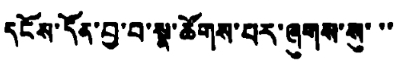དངོས་དོན་བྱ་བ་སྣ་ཚོགས་པར་ཞུགས་སུ་་་
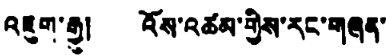འཇུག་རྒྱུ། འོས་འཚམ་གྱིས་རང་གཞན་
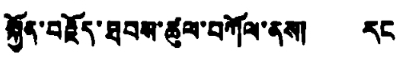སྐྱོན་བརྗོད་ཐབས་ཚུལ་བཀོལ་ནས། རང
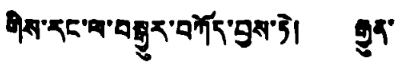གིས་རང་ལ་བསྒྱུར་བཀོད་བྱས་ཏེ། རྒྱུན་
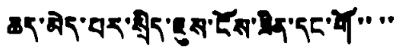ཆད་མེད་པར་སྲིད་ཇུས་ངོས་ཟིན་དང་གོ་་་་
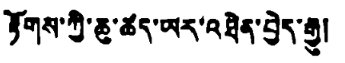རྟོགས་ཀྱི་ཆུ་ཚད་ཡར་འཐེན་བྱེད་རྒྱུ།
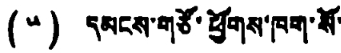(༥) དམངས་གཙོ་ཕྱོགས་ཁག་སོ་
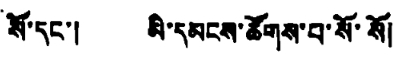སོ་དང་། མི་དམངས་ཚོགས་པ་སོ་སོ།
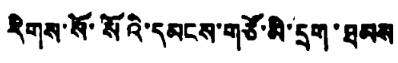རིགས་སོ་སོའི་དམངས་གཙོ་མི་དྲག་ཐམས
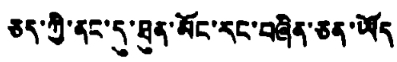ཅད་ཀྱི་ནང་དུ་ཐུན་མོང་རང་བཞིན་ཅན་ཡོད
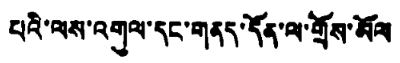པའི་ལས་འགུལ་དང་གནད་དོན་ལ་གྲོས་མོལ
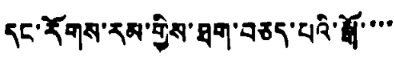དང་རོགས་རམ་གྱིས་ཐག་བཅད་པའི་སྒོ་་་་
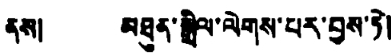ནས། མཐུན་སྒྲིལ་ལེགས་པར་བྱས་ཏེ།
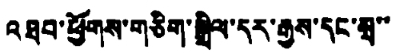འཐབ་ཕྱོགས་གཅིག་སྒྲིལ་དར་རྒྱས་དང་སྲ་་
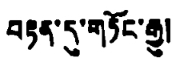བརྟན་དུ་གཏོང་རྒྱུ།
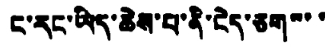ང་རང་ཡིད་ཆེས་པ་ནི་ངེད་ཅག་་་་
